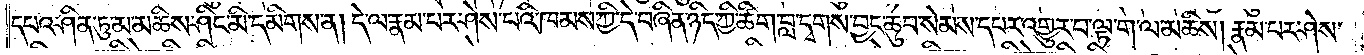དཔའ་ཤིན་ཏུ་མ་མཆིས་ཤིང་མི་དམིགས་ན། དེ་ལ་རྣམ་པར་ཤེས་པའི་ཁམས་ཀྱི་དེ་བཞིན་ཉིད་ཀྱི་ཚིག་བླ་དྭགས་བྱང་ཆུབ་སེམས་དཔར་འགྱུར་བ་ལྟ་ག་ལ་མཆིས། རྣམ་པར་ཤེས་
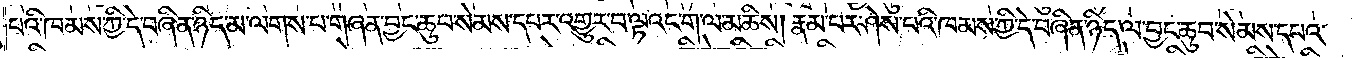པའི་ཁམས་ཀྱི་དེ་བཞིན་ཉིད་མ་ལགས་པ་གཞན་བྱང་ཆུབ་སེམས་དཔར་འགྱུར་བ་ལྟའང་ག་ལ་མཆིས། རྣམ་པར་ཤེས་པའི་ཁམས་ཀྱི་དེ་བཞིན་ཉིད་ལ་བྱང་ཆུབ་སེམས་དཔའ་
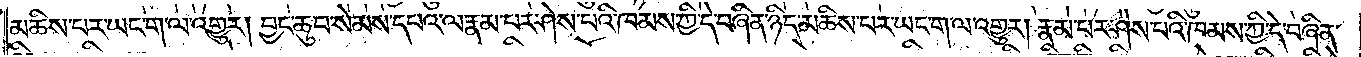མཆིས་པར་ཡང་ག་ལ་འགྱུར། བྱང་ཆུབ་སེམས་དཔའ་ལ་རྣམ་པར་ཤེས་པའི་ཁམས་ཀྱི་དེ་བཞིན་ཉིད་མཆིས་པར་ཡང་ག་ལ་འགྱུར། རྣམ་པར་ཤེས་པའི་ཁམས་ཀྱི་དེ་བཞིན་
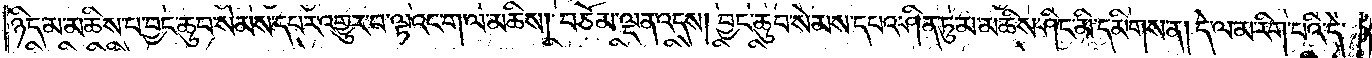ཉིད་མ་མཆིས་པ་བྱང་ཆུབ་སེམས་དཔར་འགྱུར་བ་ལྟའང་ག་ལ་མཆིས། བཅོམ་ལྡན་འདས། བྱང་ཆུབ་སེམས་དཔའ་ཤིན་ཏུ་མ་མཆིས་ཤིང་མི་དམིགས་ན། དེ་ལ་མ་རིག་པའི་དེ་
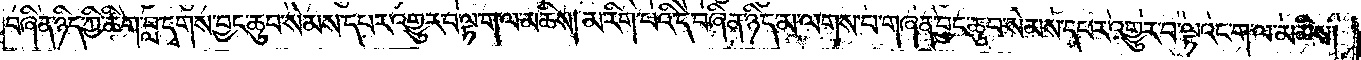བཞིན་ཉིད་ཀྱི་ཚིག་བླ་དྭགས་བྱང་ཆུབ་སེམས་དཔར་འགྱུར་བ་ལྟ་ག་ལ་མཆིས། མ་རིག་པའི་དེ་བཞིན་ཉིད་མ་ལགས་པ་གཞན་བྱང་ཆུབ་སེམས་དཔར་འགྱུར་བ་ལྟའང་ག་ལ་མཆིས།
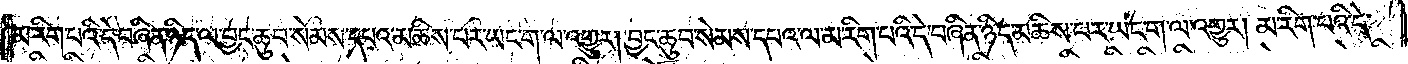མ་རིག་པའི་དེ་བཞིན་ཉིད་ལ་བྱང་ཆུབ་སེམས་དཔའ་མཆིས་པར་ཡང་ག་ལ་འགྱུར། བྱང་ཆུབ་སེམས་དཔའ་ལ་མ་རིག་པའི་དེ་བཞིན་ཉིད་མཆིས་པར་ཡང་ག་ལ་འགྱུར། མ་རིག་པའི་དེ་
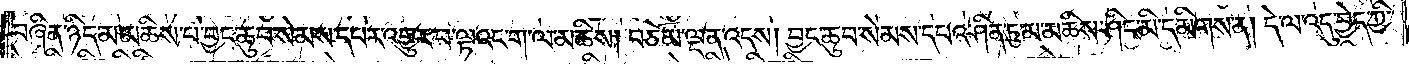བཞིན་ཉིད་མ་མཆིས་པ་བྱང་ཆུབ་སེམས་དཔར་འགྱུར་བ་ལྟའང་ག་ལ་མཆིས། བཅོམ་ལྡན་འདས། བྱང་ཆུབ་སེམས་དཔའ་ཤིན་ཏུ་མ་མཆིས་ཤིང་མི་དམིགས་ན། དེ་ལ་འདུ་བྱེད་ཀྱི་
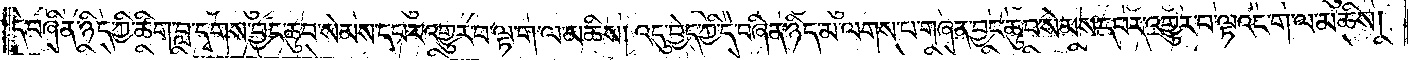དེ་བཞིན་ཉིད་ཀྱི་ཚིག་བླ་དྭགས་བྱང་ཆུབ་སེམས་དཔར་འགྱུར་བ་ལྟ་ག་ལ་མཆིས། འདུ་བྱེད་ཀྱི་དེ་བཞིན་ཉིད་མ་ལགས་པ་གཞན་བྱང་ཆུབ་སེམས་དཔར་འགྱུར་བ་ལྟའང་ག་ལ་མཆིས།
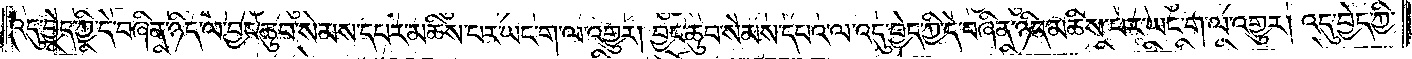འདུ་བྱེད་ཀྱི་དེ་བཞིན་ཉིད་ལ་བྱང་ཆུབ་སེམས་དཔར་མཆིས་པར་ཡང་ག་ལ་འགྱུར། བྱང་ཆུབ་སེམས་དཔའ་ལ་འདུ་བྱེད་ཀྱི་དེ་བཞིན་ཉིད་མཆིས་པར་ཡང་ག་ལ་འགྱུར། འདུ་བྱེད་ཀྱི་
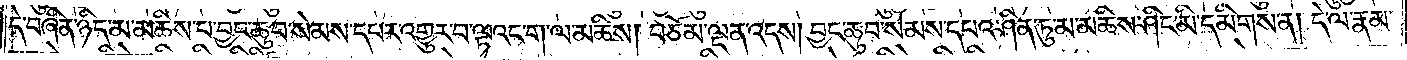དེ་བཞིན་ཉིད་མ་མཆིས་པ་བྱང་ཆུབ་སེམས་དཔར་འགྱུར་བ་ལྟའང་ག་ལ་མཆིས། བཅོམ་ལྡན་འདས། བྱང་ཆུབ་སེམས་དཔའ་ཤིན་ཏུ་མ་མཆིས་ཤིང་མི་དམིགས་ན། དེ་ལ་རྣམ་
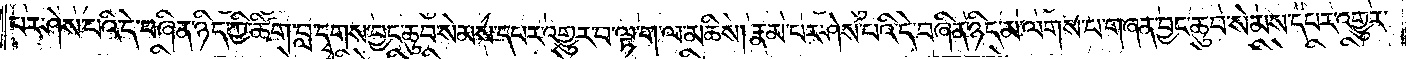པར་ཤེས་པའི་དེ་བཞིན་ཉིད་ཀྱི་ཚིག་བླ་དྭགས་བྱང་ཆུབ་སེམས་དཔར་འགྱུར་བ་ལྟ་ག་ལ་མཆིས། རྣམ་པར་ཤེས་པའི་དེ་བཞིན་ཉིད་མ་ལགས་པ་གཞན་བྱང་ཆུབ་སེམས་དཔར་འགྱུར་
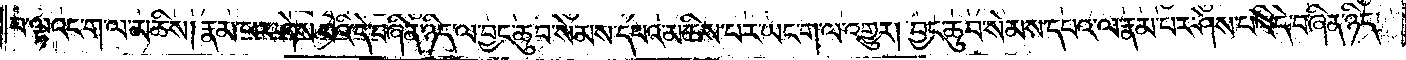བ་ལྟའང་ག་ལ་མཆིས། རྣམ་པར་ཤེས་པའི་དེ་བཞིན་ཉིད་ལ་བྱང་ཆུབ་སེམས་དཔའ་མཆིས་པར་ཡང་ག་ལ་འགྱུར། བྱང་ཆུབ་སེམས་དཔའ་ལ་རྣམ་པར་ཤེས་པའི་དེ་བཞིན་ཉིད་
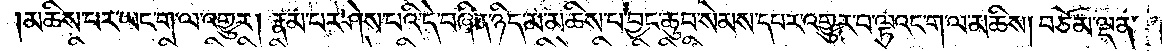མཆིས་པར་ཡང་ག་ལ་འགྱུར། རྣམ་པར་ཤེས་པའི་དེ་བཞིན་ཉིད་མ་མཆིས་པ་བྱང་ཆུབ་སེམས་དཔར་འགྱུར་བ་ལྟའང་ག་ལ་མཆིས། བཅོམ་ལྡན་
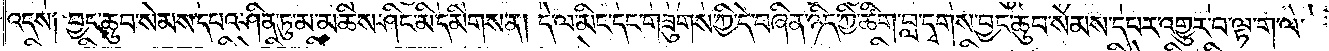འདས༑ བྱང་ཆུབ་སེམས་དཔའ་ཤིན་ཏུ་མ་མཆིས་ཤིང་མི་དམིགས་ན། དེ་ལ་མིང་དང་གཟུགས་ཀྱི་དེ་བཞིན་ཉིད་ཀྱི་ཚིག་བླ་དྭགས་བྱང་ཆུབ་སེམས་དཔར་འགྱུར་བ་ལྟ་ག་ལ་
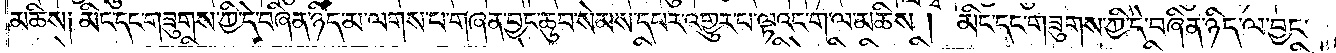མཆིས༑ མིང་དང་གཟུགས་ཀྱི་དེ་བཞིན་ཉིད་མ་ལགས་པ་གཞན་བྱང་ཆུབ་སེམས་དཔར་འགྱུར་པ་ལྟའང་ག་ལ་མཆིས། མིང་དང་གཟུགས་ཀྱི་དེ་བཞིན་ཉིད་ལ་བྱང་
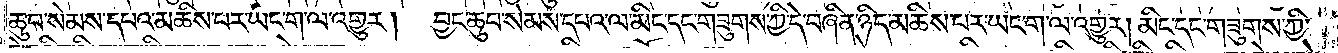ཆུབ་སེམས་དཔའ་མཆིས་པར་ཡང་ག་ལ་འགྱུར། བྱང་ཆུབ་སེམས་དཔའ་ལ་མིང་དང་གཟུགས་ཀྱི་དེ་བཞིན་ཉིད་མཆིས་པར་ཡང་ག་ལ་འགྱུར། མིང་དང་གཟུགས་ཀྱི་
